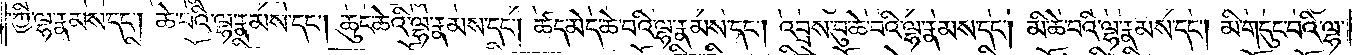ཀྱི་ལྷ་རྣམས་དང༌། ཆེ་བའི་ལྷ་རྣམས་དང༌། ཆུང་ཆེའི་ལྷ་རྣམས་དང༌། ཚད་མེད་ཆེ་བའི་ལྷ་རྣམས་དང༌། འབྲས་བུ་ཆེ་བའི་ལྷ་རྣམས་དང༌། མི་ཆེ་བའི་ལྷ་རྣམས་དང༌། མི་གདུང་བའི་ལྷ་
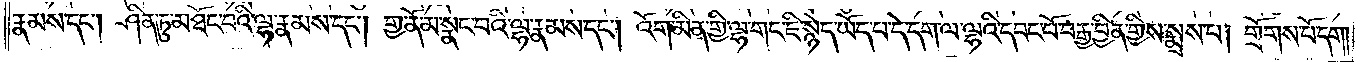རྣམས་དང༌། ཤིན་ཏུ་མཐོང་བའི་ལྷ་རྣམས་དང༌། གྱ་ནོམ་སྣང་བའི་ལྷ་རྣམས་དང༌། འོག་མིན་གྱི་ལྷ་གང་ཇི་སྙེད་ཡོད་པ་དེ་དག་ལ་ལྷའི་དབང་པོ་བརྒྱ་བྱིན་གྱིས་སྨྲས་པ། གྲོགས་པོ་དག།
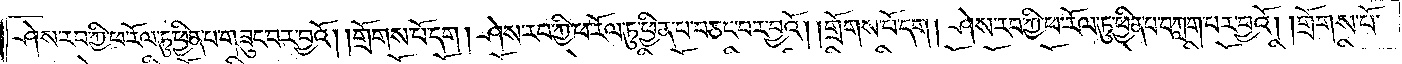ཤེས་རབ་ཀྱི་ཕ་རོལ་ཏུ་ཕྱིན་པ་གཟུང་བར་བྱའོ། །གྲོགས་པ་དག། ཤེས་རབ་ཀྱི་ཕ་རོལ་ཏུ་ཕྱིན་པ་བཅང་བར་བྱའོ། །གྲོགས་པོ་དག། ཤེས་རབ་ཀྱི་ཕ་རོལ་ཏུ་ཕྱིན་པ་བཀླག་པར་བྱའོ། །གྲོགས་པོ་
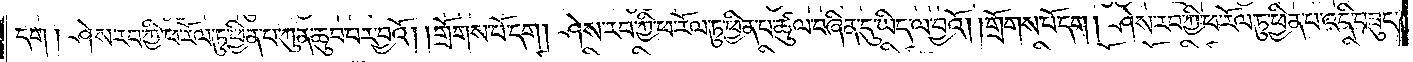དག། ཤེས་རབ་ཀྱི་ཕ་རོལ་ཏུ་ཕྱིན་པ་ཀུན་ཆུབ་པར་བྱའོ། །གྲོགས་པོ་དག། ཤེས་རབ་ཀྱི་ཕ་རོལ་ཏུ་ཕྱིན་པ་ཚུལ་བཞིན་དུ་ཡིད་ལ་བྱའོ། །གྲོགས་པོ་དག། ཤེས་རབ་ཀྱི་ཕ་རོལ་ཏུ་ཕྱིན་པ་འདི་བཟུང་
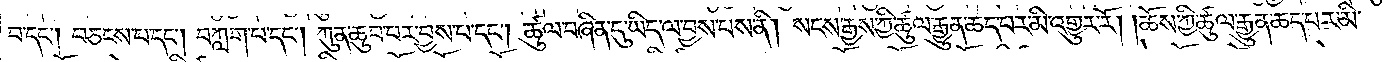བ་དང༌། བཅངས་པ་དང༌། བཀླག་པ་དང༌། ཀུན་ཆུབ་པར་བྱས་པ་དང༌། ཚུལ་བཞིན་དུ་ཡིད་ལ་བྱས་པས་ནི། སངས་རྒྱས་ཀྱི་ཚུལ་རྒྱུན་ཆད་པར་མི་འགྱུར་རོ། །ཆོས་ཀྱི་ཚུལ་རྒྱུན་ཆད་པར་མི་
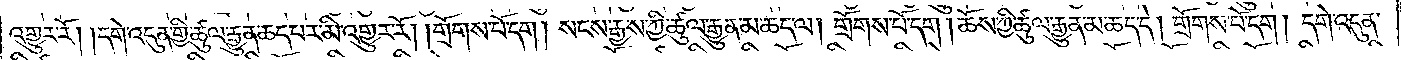འགྱུར་རོ། །དགེ་འདུན་གྱི་ཚུལ་རྒྱུན་ཆད་པར་མི་འགྱུར་རོ། །གྲོགས་པོ་དག། སངས་རྒྱས་ཀྱི་ཚུལ་རྒྱུན་མ་ཆད་ལ། གྲོགས་པོ་དག། ཆོས་ཀྱི་ཚུལ་རྒྱུན་མ་ཆད་དེ། གྲོགས་པོ་དག། དགེ་འདུན་
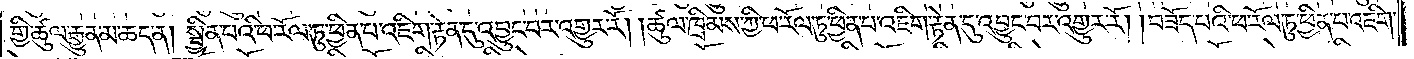གྱི་ཚུལ་རྒྱུན་མ་ཆད་ན། སྦྱིན་པའི་ཕ་རོལ་ཏུ་ཕྱིན་པ་འཇིག་རྟེན་དུ་འབྱུང་བར་འགྱུར་རོ། །ཚུལ་ཁྲིམས་ཀྱི་ཕ་རོལ་ཏུ་ཕྱིན་པ་འཇིག་རྟེན་དུ་འབྱུང་བར་འགྱུར་རོ། །བཟོད་པའི་ཕ་རོལ་ཏུ་ཕྱིན་པ་འཇིག་
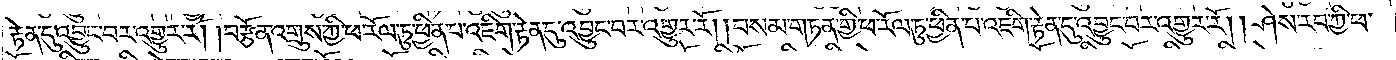རྟེན་དུ་འབྱུང་བར་འགྱུར་རོ། །བརྩོན་འགྲུས་ཀྱི་ཕ་རོལ་ཏུ་ཕྱིན་པ་འཇིག་རྟེན་དུ་འབྱུང་བར་འགྱུར་རོ། །བསམ་གཏན་གྱི་ཕ་རོལ་ཏུ་ཕྱིན་པ་འཇིག་རྟེན་དུ་འབྱུང་བར་འགྱུར་རོ། །ཤེས་རབ་ཀྱི་ཕ་
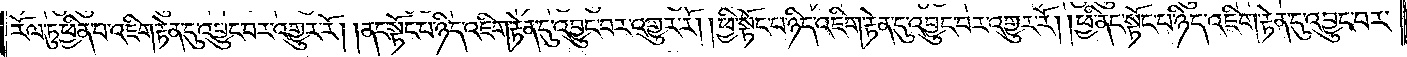རོལ་ཏུ་ཕྱིན་པ་འཇིག་རྟེན་དུ་འབྱུང་བར་འགྱུར་རོ། །ནང་སྟོང་པ་ཉིད་འཇིག་རྟེན་དུ་འབྱུང་བར་འགྱུར་རོ། །ཕྱི་སྟོང་པ་ཉིད་འཇིག་རྟེན་དུ་འབྱུང་བར་འགྱུར་རོ། །ཕྱི་ནང་སྟོང་པ་ཉིད་འཇིག་རྟེན་དུ་འབྱུང་བར་
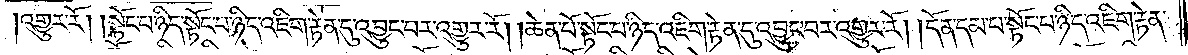འགྱུར་རོ། །སྟོང་པ་ཉིད་སྟོང་པ་ཉིད་འཇིག་རྟེན་དུ་འབྱུང་བར་འགྱུར་རོ། །ཆེན་པོ་སྟོང་པ་ཉིད་འཇིག་རྟེན་དུ་འབྱུང་བར་འགྱུར་རོ། དོན་དམ་པ་སྟོང་པ་ཉིད་འཇིག་རྟེན་
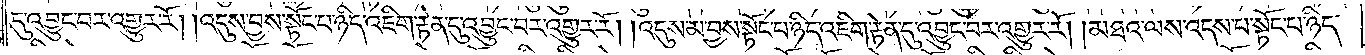དུ་འབྱུང་བར་འགྱུར་རོ། །འདུས་བྱས་སྟོང་པ་ཉིད་འཇིག་རྟེན་དུ་འབྱུང་བར་འགྱུར་རོ། །འདུས་མ་བྱས་སྟོང་པ་ཉིད་འཇིག་རྟེན་དུ་འབྱུང་བར་འགྱུར་རོ། །མཐའ་ལས་འདས་པ་སྟོང་པ་ཉིད་
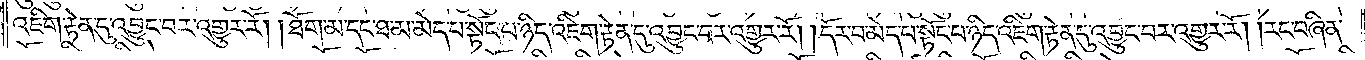འཇིག་རྟེན་དུ་འབྱུང་བར་འགྱུར་རོ། །ཐོག་མ་དང་ཐ་མ་མེད་པ་སྟོང་པ་ཉིད་འཇིག་རྟེན་དུ་འབྱུང་བར་འགྱུར་རོ། །དོར་བ་མེད་པ་སྟོང་པ་ཉིད་འཇིག་རྟེན་དུ་འབྱུང་བར་འགྱུར་རོ། །རང་བཞིན་
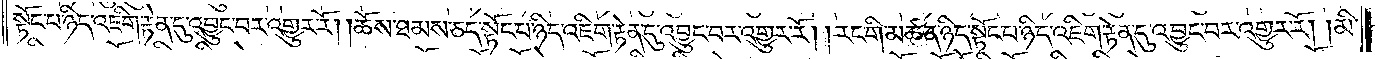སྟོང་པ་ཉིད་འཇིག་རྟེན་དུ་འབྱུང་བར་འགྱུར་རོ། །ཆོས་ཐམས་ཅད་སྟོང་པ་ཉིད་འཇིག་རྟེན་དུ་འབྱུང་བར་འགྱུར་རོ། །རང་གི་མཚན་ཉིད་སྟོང་པ་ཉིད་འཇིག་རྟེན་དུ་འབྱུང་བར་འགྱུར་རོ། །མི་
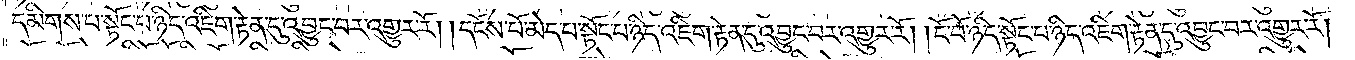དམིགས་པ་སྟོང་པ་ཉིད་འཇིག་རྟེན་དུ་འབྱུང་བར་འགྱུར་རོ། །དངོས་པོ་མེད་པ་སྟོང་པ་ཉིད་འཇིག་རྟེན་དུ་འབྱུང་བར་འགྱུར་རོ། །ངོ་བོ་ཉིད་སྟོང་པ་ཉིད་འཇིག་རྟེན་དུ་འབྱུང་བར་འགྱུར་རོ། །
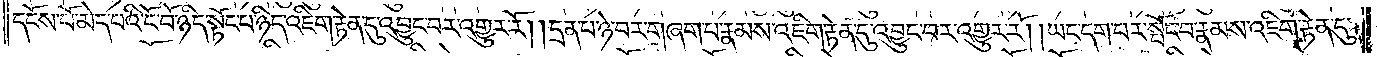དངོས་པོ་མེད་པའི་ངོ་བོ་ཉིད་སྟོང་པ་ཉིད་འཇིག་རྟེན་དུ་འབྱུང་བར་འགྱུར་རོ། །དྲན་པ་ཉེ་བར་གཞག་པ་རྣམས་འཇིག་རྟེན་དུ་འབྱུང་བར་འགྱུར་རོ། །ཡང་དག་པར་སྤོང་བ་རྣམས་འཇིག་རྟེན་དུ་
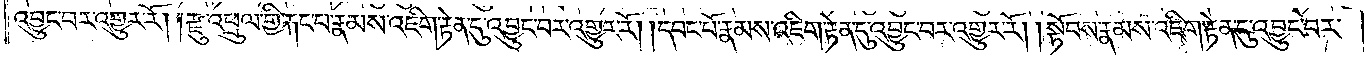འབྱུང་བར་འགྱུར་རོ། །རྫུ་འཕྲུལ་གྱི་རྐང་པ་རྣམས་འཇིག་རྟེན་དུ་འབྱུང་བར་འགྱུར་རོ། །དབང་པོ་རྣམས་འཇིག་རྟེན་དུ་འབྱུང་བར་འགྱུར་རོ། །སྟོབས་རྣམས་འཇིག་རྟེན་དུ་འབྱུང་བར་
